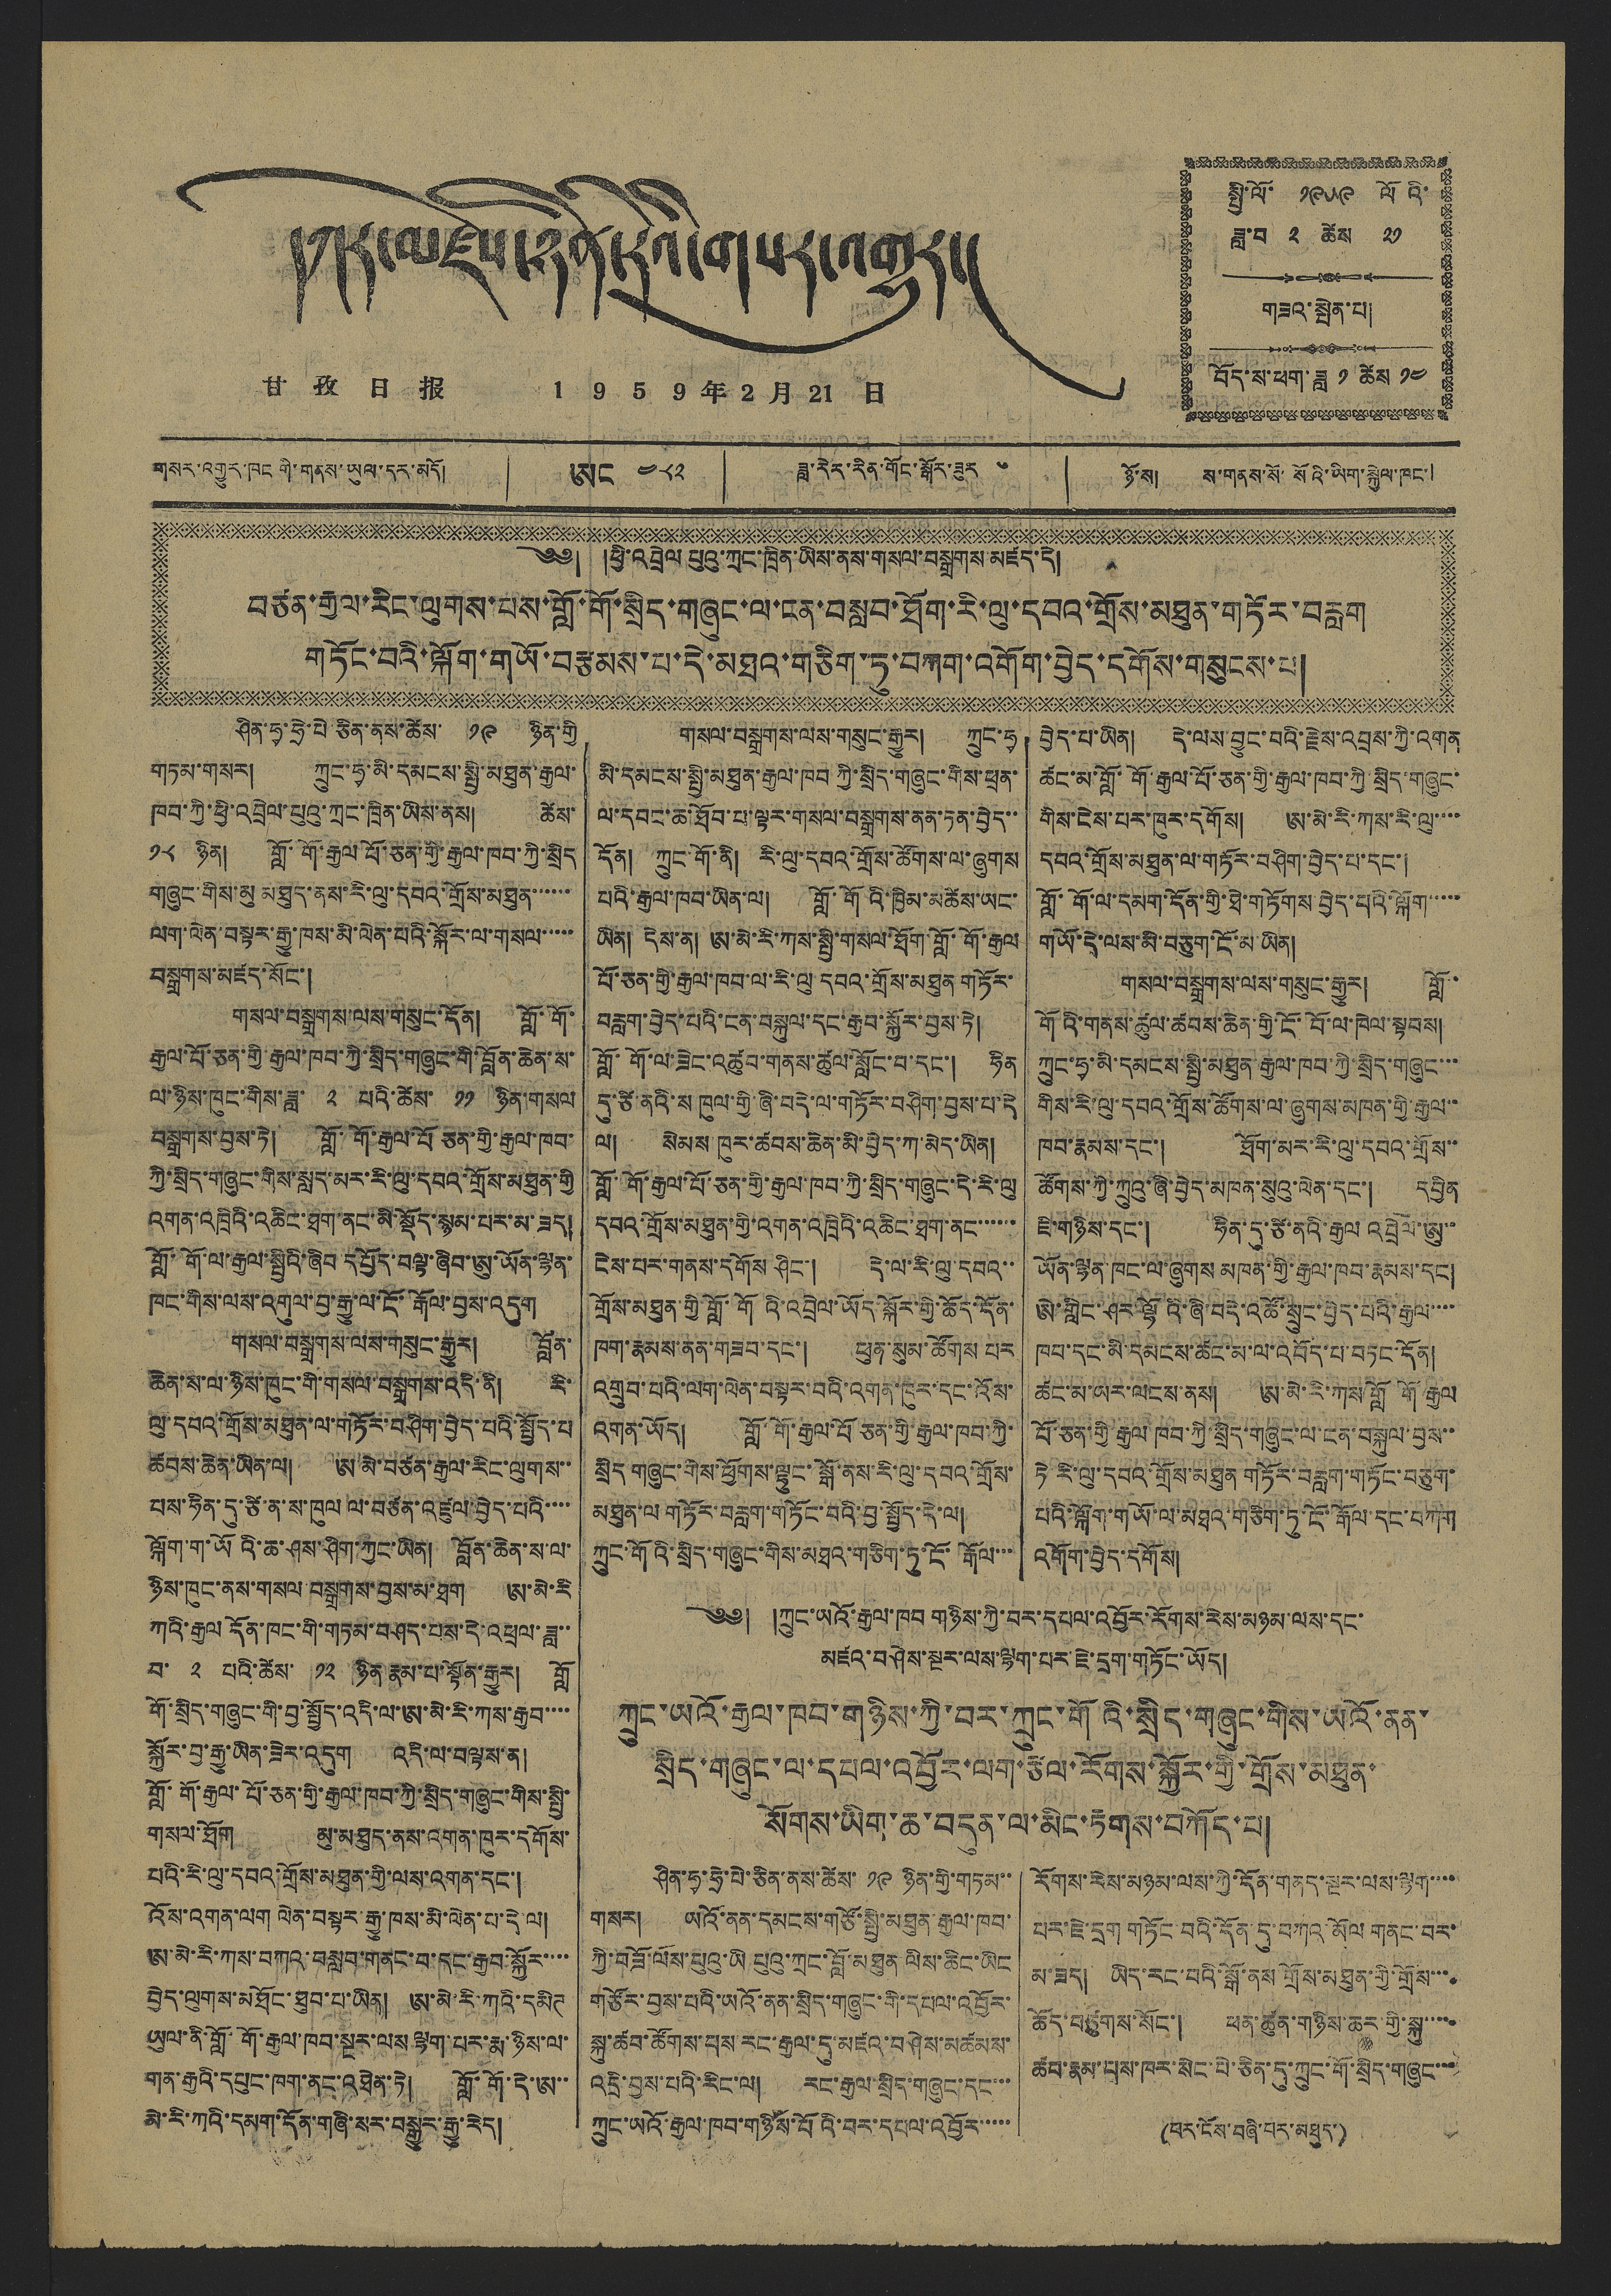དཀར་མཛེས་ཉིན་རེའི་གསར་འགྱུར།
甘 孜 日 报 1 9 5 9 年 2 月 21 日
སྤྱི་ལོ་ ༡༩༥༩ ལོའི་
ཟླ་བ་ ༢ ཚེས ༢༡
གཟའ་སྤེན་པ།
བོད་ས་ཕག་ཟླ ༡ ཚེས ༡༤
༄༅། །ཕྱི་འབྲེལ པུའུ་ཀྲང་ཁྲིན་ཡིས་ནས་གསལ་བསྒྲགས་མཛད་དེ།
བཙན་རྒྱལ་རིང་ལུགས་པས་གློ་གོ་སྲིད་གཞུང་ལ་ངན་བསླབ་ཐོག་རི་ལུ་དབའ་གྲོས་མཐུན་གཏོར་བརླག
གཏོང་བའི་ལྐོག་གཡོ་བརྩམས་པ་དེ་མཐའ་གཅིག་ཏུ་བཀག་འགོག་བྱེད་དགོས་གསུངས་པ།
ཤིན་ཧྭ་ཧྲེ་པེ ཅིན་ནས་ཚོེས་ ༡༩ ཉིན་གྱི
གཏམ་གསར། ཀྲུང་ཧྭ་མི་དམངས་སྤྱི་མཐུན་རྒྱལ་
ཁབ་ཀྱི་ཕྱི་འབྲེལ་པུའུ་ཀྲང་ཁྲིན་ཡིས་ནས། ཚེས་
༡༨ ཉིན། གློ་གོ་རྒྱལ པོ་ཅན་གྱི་རྒྱལ་ཁབ་ཀྱི་སྲིད
གཞུང་གིས་མུ མཐུད་ནས་རི་ལུ་དབའ་གྲོས་མཐུན་་་་་་
ལག་ལེན་བསྟར་རྒྱུ་ཁས་མི་ལེན་པའི་སྐོར་ལ་གསལ་་་་་
བསྒྲགས་མཛད་སོང་།
གསལ་བསྒྲགས་ལས་གསུང་དོན། གློ་གོ་
རྒྱལ་པོ་ཅན་གྱི་རྒྱལ་ཁབ་ཀྱི་སྲིད་གཞུང་གི་བློན་ཆེན་ས་
ལ་ཉིས་ཁུང་གིས་ཟླ་ ༢ པའི་ཚེས་ ༡༡ ཉིག་གསལ
བསྒྲགས་བྱས་ཏེ། གློ་གོ་རྒྱལ་པོ ཅན་གྱི་རྒྱལ་ཁབ་
ཀྱི་སྲིད་གཞུང་གིས་སླད་མར་རི་ལུ་དབའ་གྲོས་མཐུན་གྱི
འགན་འཁྲིའི་འཆིང་ཐག་ནང་མི་སྡོད་སྙམ་པར་མ་ཟད།
གློ་གོ་ལ་རྒྱལ་སྤྱིའི་ཞིབ་དཔྱོད་བལྟ་ཞིབ་ཨུ་ཡོན་ལྷན་
ཁང་གིས་ལས་འགུལ་བྱ་རྒྱུ་ལ་ངོ་རྒོལ་བྱས་འདུག
གསལ་བསྒྲགས་ལས་གསུང་རྒྱུར། བློན་
ཆེན་ས་ལ་ཉིས་ཁུང་གི་གསལ་བསྒྲགས་འདི་ནི། རི་
ལུ་དབའ་གྲོས་མཐུན་ལ་གཏོར་བཤིག་བྱེད་པའི་སྤྱོད་པ
ཚབས་ཆེན་ཡིན་ལ། ཨ་མེ་བཙན་རྒྱལ་རིང་ལུགས་་
པས་ཧིན་དུ་ཙི་ན་ས་ཁུལ ལ་བཙན་འཛུལ་བྱེད་པའི་་་་
ལྐོག་ག་ཡོའི་ཆ་ཤས་ཤིག་ཀྱང་ཡིན། བློན་ཆེན་ས་ལ་
ཉིས་ཁུང་ནས་གསལ་བསྒྲགས་བྱས་མ་ཐག ཨ་མེ་རི
ཀའི་རྒྱལ དོན་ཁང་གི་གཏམ་བཤད་པས་དེ་འཕྲལ་ཟླ་་
བ་ ༢ པའི་ཚེས་ ༡༢ ཉིན་རྣམ་པ་སྟོན་རྒྱུར། གློ
གོ་སྲིད་གཞུང་གི་བྱ་སྤྱོད་འདི་ལ་ཨ་མེ་རི་ཀས་རྒྱབ་་་་
སྐྱོར་བྱ་རྒྱུ་ཡིན་ཟེར་འདུག འདི་ལ་བལྟས་ན།
གློ་གོ་རྒྱལ་པོ་ཅན་གྱི་རྒྱལ་ཁབ་ཀྱི་སྲིད་གཞུང་གིས་སྤྱི་
གསལ་ཐོག མུ་མཐུད་ནས་འགན་ཁུར་དགོས་
པའི་རི་ལུ་དབའ་གྲོས་མཐུན་གྱི་ལས་འགན་དང་།
འོས་འགན་ལག ལེན་བསྟར་རྒྱུ་ཁས་མི་ལེན་པ་དེ་ལ།
ཨ་མེ་རི་ཀས་བཀའ་བསླབ་གནང་བ་དང་རྒྱབ་སྐྱོར་་་་
བྱེད་ལུགས་མཐོང་ཐུབ་པ་ཡིན། ཨ་མེ་རི་ཀའི་དམིཊ
ཡུལ་ནི་གློ་གོ་རྒྱལ་ཁབ་སྔར་ལས ལྷག་པར་རྨ་ཉིས་ལ་
གན་རྒྱའི་དཔུང་ཁག་ནང་འཐེན་ཏེ། གློ་གོ་དེ་ཨ་་
མེ་རི་ཀའི་དམག་དོན་གཞི་སར་བསྒྱུར་རྒྱུ་རེད།
གསལ་བསྒྲགས་ལས་གསུང་རྒྱུར། ཀྲུང་ཧྭ
མི་དམངས་སྤྱི་མཐུན་རྒྱལ་ཁབ ཀྱི་སྲིད་གཞུང་གིས་ཕྲན་
ལ་དབང་ཆ་ཐོབ་པ་ལྟར་གསལ་བསྒྲགས་ནན་ཏན་བྱེད་་
དོན། ཀྲུང་གོ་ནི། རི་ལུ་དབའ་གྲོས་ཚོགས་ལ་ཞུགས
པའི་རྒྱལ་ཁབ་ཡིན་ལ། གློ་གོའི་ཁྱིམ་མཚིས་ཡང་
ཡིན། དེས་ན། ཨ་མེ་རི་ཀས་སྤྱི་གསལ་ཐོག་གློ་གོ་རྒྱལ
པོ་ཅན་གྱི་རྒྱལ་ཁབ་ལ་རི་ལུ དབའ་གྲོས་མཐུན གཏོར་
བརླག་བྱེད་པའི་ངན་བསྐུལ་དང་རྒྱབ་སྐྱོར་བྱས་ཏེ།
གློ་གོ་ལ་ཟེང་འཚུབ་གནས་ཚུལ་སློང་བ་དང་། ཧིན
དུ་ཙི་ནའི་ས ཁུལ་གྱི་ཞི་བདེ་ལ་གཏོར་བཤིག་བྱས་པ་དེ
ལ། སེམས་ཁུར་ཚབས་ཆེན་མི་བྱེད་ཀ་མེད་ཡིན།
གློ་གོ་རྒྱལ་པོ་ཅན་གྱི་རྒྱལ་ཁབ་ཀྱི་སྲིད་གཞུང་དེ་རི་ལུ
དབའ་གྲོས་མཐུན་གྱི་འགན་འཁྲིའི་འཆིང་ཐག་ནང་་་་་་
ངེས་པར་གནས་དགོས ཤིང་། དེ་ལ་རི་ལུ་དབའ་་
གྲོས་མཐུན་གྱི གློ་གོའི་འབྲེལ་ཡོད་སྐོར་གྱི་ཆོད་དོན་
ཁག་རྣམས་ནན་གཟབ་དང་། ཕུན་སུམ་ཚོགས པར
འགྲུབ་པའི་ལག་ལེན་བསྟར་བའི་འགན་ཁུར་དང་འོས་
འགན་ཡོད། གློ་གོ་རྒྱལ་པོ ཅན་གྱི་རྒྱལ་ཁབ་ཀྱི་
སྲིད གཞུང་གིས་ཕྱོགས་ལྷུང་སྒོ་ནས་རི་ལུ་དབའ་གྲོས་
མཐུན་ལ གཏོར་བརླག་གཏོང་བའི་བྱ་སྤྱོད་དེ་ལ།
ཀྲུང་གོའི་སྲིད་གཞུང་གིས་མཐའ་གཅིག་ཏུ་ངོ་རྒོལ་་་
བྱེད་པ་ཡིན། དེ་ལས་བྱུང་བའི་རྗེས་འབྲས་ཀྱི་འགན
ཚང་མ་གློ་གོ་རྒྱལ་པོ་ཅན་གྱི་རྒྱལ་ཁབ་ཀྱི་སྲིད་གཞུང་
གིས་ངེས་པར་ཁུར་དགོས། ཨ་མེ་རི་ཀས་རི་ལུ་་་་
དབའ་གྲོས་མཐུན་ལ་གཏོར་བཤིག་བྱེད་པ་དང་།
གློ་གོ་ལ་དམག་དོན་གྱི་ཐེ་གཏོགས་བྱེད་པའི་ལྐོག་་་་་
གཡོ་དེ་ལས་མི་བཅུག་ངོ་མ་ཡིན།
གསལ་བསྒྲགས་ལས་གསུང་རྒྱུར། གློ་
གོའི་གནས་ཚུལ་ཚབས་ཆེན་གྱི་ངོ་བོ་ལ་ཁེལ་སྟབས།
ཀྲུང་ཧྭ་མི་དམངས་སྤྱི་མཐུན རྒྱལ་ཁབ་ཀྱི་སྲིད་གཞུང་་་
གིས་རི་ལུ་དབའ་གྲོས་ཚོགས་ལ་ཞུགས་མཁན་གྱི་རྒྱལ་་
ཁབ་རྣམས་དང་། ཐོག་མར་རི་ལུ་དབའ་གྲོས་་
ཚོགས་ཀྱི་ཀྲུའུ་ཞི་བྱེད་མཁན་སུའུ་ལེན་དང་། དབྱིན
ཇི་གཉིས་དང་། ཧིན་དུ་ཙི་ནའི་རྒྱལ འབྲེལ་ཨུ་་
ཡོན་ལྷན་ཁང་ལ་ཞུགས་མཁན་གྱི་རྒྱལ་ཁབ་རྣམས་དང།
ཨེ་གླིང་ཤར་ལྷོའི་ཞི་བདེ་འཚོ་སྲུང་བྱེད་པའི་རྒྱལ་་་་
ཁབ་དང་མི་དམངས་ཚང་མ་ལ་འབོད་པ་བཏང་དོན།
ཚང་མ་ཡར་ལངས་ནས། ཨ་མེ་རི་ཀས གློ གོ རྒྱལ
པོ་ཅན་གྱི་རྒྱལ ཁབ་ཀྱི་སྲིད་གཞུང་ལ་ངན་བསྐུལ་བྱས་་
ཏེ རི་ལུ་དབའ་གྲོས་མཐུན གཏོར་བརླག་གཏོང་བཅུག་
པའི་ལྐོག་གཡོ་ལ་མཐའ་གཅིག་ཏུ་ངོ་རྒོལ་དང་བཀག
འགོག་བྱེད་དགོས།
༄༅། །ཀྲུང་ཡའོ་རྒྱལ་ཁབ གཉིས་ཀྱི་བར་དཔལ་འབྱོར་རོགས་རེས་མཉམ་ལས་དང་
མཛའ་བཤེས་སྔར་ལས་ལྷག་པར་ཇེ་དྲག་གཏོང་ཡོད།
ཀྲུང་ཡའོ་རྒྱལ་ཁབ་གཉིས་ཀྱི་བར་ཀྲུང་གོའི་སྲིད་གཞུང་གིས་ཡའོ་ནན་
སྲིད་གཞུང་ལ་དཔལ་འབྱོར་ལག་རྩལ་རོགས་སྐྱོར་གྱི་གྲོས་མཐུན་
སོགས་ཡིག་ཆ་བདུན་ལ་མིང་རྟགས་བཀོད་པ།
ཤིན་ཧྭ་ཧྲེ་པེ་ཅིན་ནས་ཚེས་ ༡༩ ཉིན་གྱི་གཏམ་་
གསར། ཡའོ་ནན་དམངས་གཙོ་སྤྱི་མཐུན་རྒྱལ་ཁབ་
ཀྱི་བཟོ་ལས་པུའུ་ཡི པུའུ་ཀྲང་བློ་མཐུན ལིས་ཆིང་ཡིང
གཙོར་བྱས་པའི་ཡའོ་ནན་སྲིད་གཞུང་གི་དཔལ་འབྱོར་
སྐུ་ཚབ་ཚོགས་པས རང་རྒྱལ་དུ་མཛའ་བཤེས་མཚམས་
འདྲི་བྱས་པའི་རིང་ལ། རང་རྒྱལ་སྲིད་གཞུང་དང་་་
ཀྲུང་ཡའོ་རྒྱལ་ཁབ་གཉིས་པོའི་བར་དཔལ་འབྱོར་་་་་
རོགས་རེས་མཉམ་ལས་ཀྱི་དོན་གནད་སྔར་ལས་ལྷག་་་་
པར་ཇེ་དྲག གཏོང་བའི་དོན་དུ་བཀའ་མོལ གནང་བར་
མ་ཟད། ཡིད་རང་བའི་སྒོ་ནས གྲོས་མཐུན་གྱི་གྲོས་་་
ཆོད་བཙུགས་སོང་། ཕན་ཚུན་གཉིས་ཆར་གྱི་སྐྱུ་་་
ཚབ་རྣམ་པས་ཁར་སེང་པེ་ཅིན་དུ་ཀྲུང་གོ་སྲིད་གཞུང་་་
(པར་ངོས་བཞི་པར་མཐུད་)
